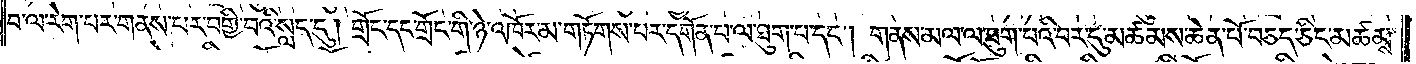བ་ལ་རེག་པར་གནས་པར་བགྱི་བའི་སླད་དུ། གྲོང་དང་གྲོང་གི་ཉེ་འཁོར་མ་གཏོགས་པར་དགོན་པ་ལ་ཐུག་པ་དང༌། གནས་མལ་ལ་ཐུག་པའི་བར་དུ་མཚམས་ཆེན་པོ་བཅད་ཅིང་མཚམས་
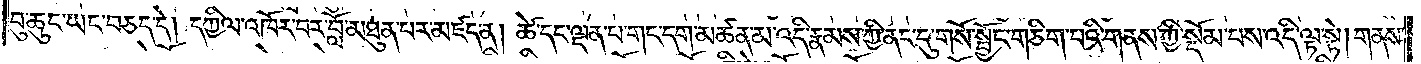བུ་ཆུང་ཡང་བཅད་དེ། དཀྱིལ་འཁོར་བར་བློ་མཐུན་པར་མཛད་ན། ཚེ་དང་ལྡན་པ་གང་དག་མཚན་མ་འདི་རྣམས་ཀྱི་ནང་དུ་གསོ་སྦྱོང་གཅིག་པའི་གནས་ཀྱི་སྡོམ་པས་འདི་ལྟ་སྟེ། གནས་
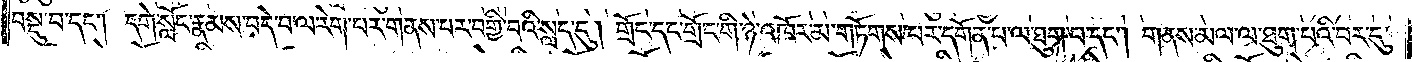བསྡུ་བ་དང༌། དགེ་སློང་རྣམས་བདེ་བ་ལ་རེག་པར་གནས་པར་བགྱི་བའི་སླད་དུ། གྲོང་དང་གྲོང་གི་ཉེ་འཁོར་མ་གཏོགས་པར་དགོན་པ་ལ་ཐུག་པ་དང༌། གནས་མལ་ལ་ཐུག་པའི་བར་དུ་
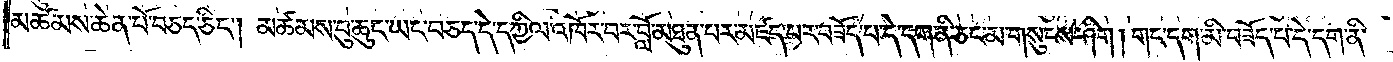མཚམས་ཆེན་པོ་བཅད་ཅིང༌། མཚམས་བུ་ཆུང་ཡང་བཅད་དེ་དཀྱིལ་འཁོར་བར་བློ་མཐུན་པར་མཛད་པར་བཟོད་པ་དེ་དག་ནི་ཅང་མ་གསུངས་ཤིག །གང་དག་མི་བཟོད་པ་དེ་དག་ནི་
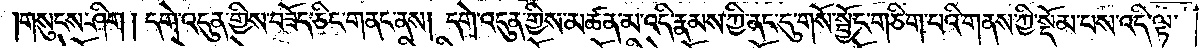གསུངས་ཤིག །དགེ་འདུན་གྱིས་བཟོད་ཅིང་གནང་ནས། དགེ་འདུན་གྱིས་མཚན་མ་འདི་རྣམས་ཀྱི་ནང་དུ་གསོ་སྦྱོང་གཅིག་པའི་གནས་ཀྱི་སྡོམ་པས་འདི་ལྟ་
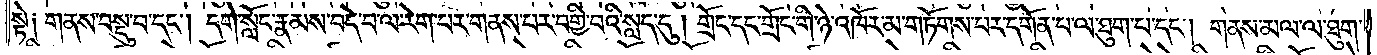སྟེ༑ གནས་བསྡུ་བ་དང༌། དགེ་སློང་རྣམས་བདེ་བ་ལ་རེག་པར་གནས་པར་བགྱི་བའི་སླད་དུ། གྲོང་དང་གྲོང་གི་ཉེ་འཁོར་མ་གཏོགས་པར་དགོན་པ་ལ་ཐུག་པ་དང༌། གནས་མལ་ལ་ཐུག་
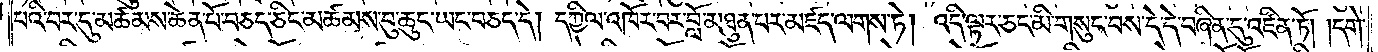པའི་བར་དུ་མཚམས་ཆེན་པོ་བཅད་ཅིང་མཚམས་བུ་ཆུང་ཡང་བཅད་དེ། དཀྱིལ་འཁོར་བར་བློ་མཐུན་པར་མཛད་ལགས་ཏེ། འདི་ལྟར་ཅང་མི་གསུང་བས་དེ་དེ་བཞིན་དུ་འཛིན་ཏོ། །དགེ་
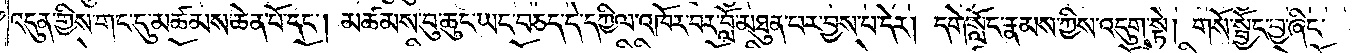འདུན་གྱིས་གང་དུ་མཚམས་ཆེན་པོ་དང༌། མཚམས་བུ་ཆུང་ཡང་བཅད་དེ་དཀྱིལ་འཁོར་བར་བློ་མཐུན་པར་བྱས་པ་དེར། དགེ་སློང་རྣམས་ཀྱིས་འདུག་སྟེ། གསོ་སྦྱོང་བྱ་ཞིང་
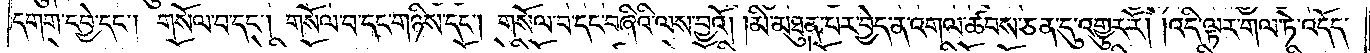དགག་དབྱེ་དང༌། གསོལ་བ་དང༌། གསོལ་བ་དང་གཉིས་དང༌། གསོལ་བ་དང་བཞིའི་ལས་བྱའོ། །མི་མཐུན་པར་བྱེད་ན་འགལ་ཚབས་ཅན་དུ་འགྱུར་རོ། །འདི་ལྟར་གལ་ཏེ་འདོད་
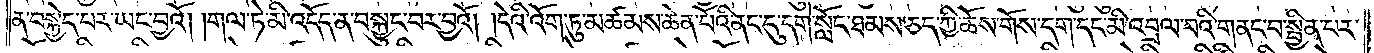ན་བསྐྱེད་པར་ཡང་བྱའོ། །གལ་ཏེ་མི་འདོད་ན་བསྐྱུང་བར་བྱའོ། །དེའི་འོག་ཏུ་མཚམས་ཆེན་པོའི་ནང་དུ་དགེ་སློང་ཐམས་ཅད་ཀྱི་ཆོས་གོས་དག་དང་མི་འབྲལ་བའི་གནང་བ་སྦྱིན་པར་
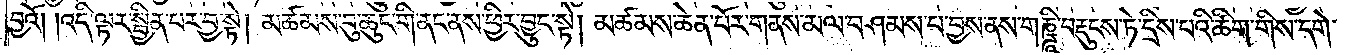བྱའོ། །འདི་ལྟར་སྦྱིན་པར་བྱ་སྟེ། མཚམས་བུ་ཆུང་གི་ནང་ནས་ཕྱིར་བྱུང་སྟེ། མཚམས་ཆེན་པོར་གནས་མལ་བཤམས་པ་བྱས་ནས་གཎྜཱི་བརྡུངས་ཏེ་དྲིས་པའི་ཚིག་གིས་དགེ་
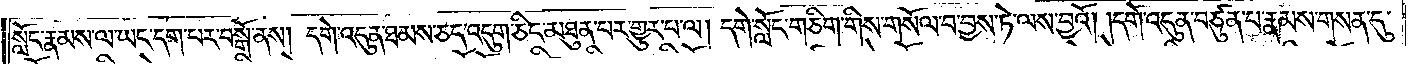སློང་རྣམས་ལ་ཡང་དག་པར་བསྒོ་ནས། དགེ་འདུན་ཐམས་ཅད་འདུག་ཅིང་མཐུན་པར་གྱུར་པ་ལ། དགེ་སློང་གཅིག་གིས་གསོལ་བ་བྱས་ཏེ་ལས་བྱའོ། །དགེ་འདུན་བཙུན་པ་རྣམས་གསན་དུ་
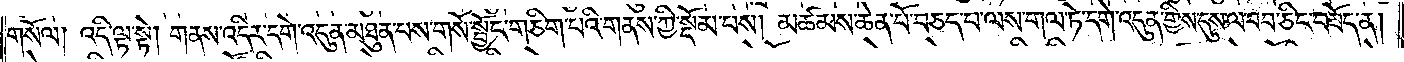གསོལ། འདི་ལྟ་སྟེ། གནས་འདིར་དགེ་འདུན་མཐུན་པས་གསོ་སྦྱོང་གཅིག་པའི་གནས་ཀྱི་སྡོམ་པས། མཚམས་ཆེན་པོ་བཅད་པ་ལས་གལ་ཏེ་དགེ་འདུན་གྱིས་དུས་ལ་བབ་ཅིང་བཟོད་ན།
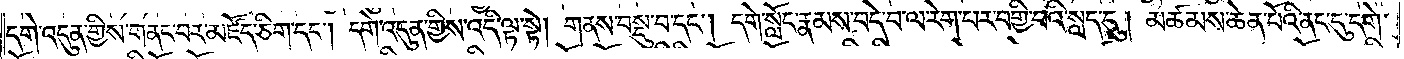དགེ་འདུན་གྱིས་གནང་བར་མཛོད་ཅིག་དང༌། དགེ་འདུན་གྱིས་འདི་ལྟ་སྟེ། གནས་བསྡུ་བ་དང༌། དགེ་སློང་རྣམས་བདེ་བ་ལ་རེག་པར་བགྱི་བའི་སླད་དུ། མཚམས་ཆེན་པོའི་ནང་དུ་དགེ་
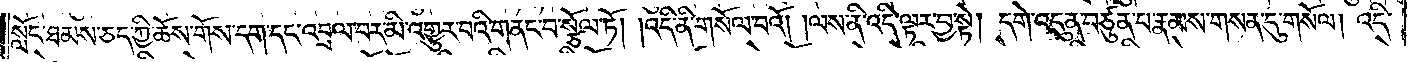སློང་ཐམས་ཅད་ཀྱི་ཆོས་གོས་དག་དང་འབྲལ་བར་མི་འགྱུར་བའི་གནང་བ་སྩོལ་ཏོ། །འདི་ནི་གསོལ་བའོ། །ལས་ནི་འདི་ལྟར་བྱ་སྟེ། དགེ་འདུན་བཙུན་པ་རྣམས་གསན་དུ་གསོལ། འདི་
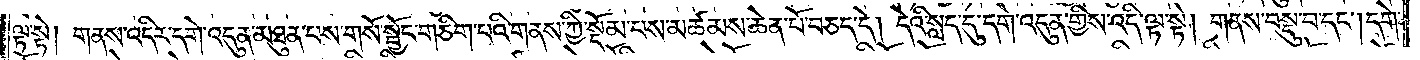ལྟ་སྟེ། གནས་འདིར་དགེ་འདུན་མཐུན་པས་གསོ་སྦྱོང་གཅིག་པའི་གནས་ཀྱི་སྡོམ་པས་མཚམས་ཆེན་པོ་བཅད་དེ། དེའི་སླད་དུ་དགེ་འདུན་གྱིས་འདི་ལྟ་སྟེ། གནས་བསྡུ་བ་དང༌། དགེ་
